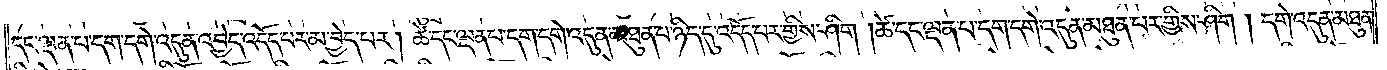དང་ལྡན་པ་དག་དགེ་འདུན་འབྱེད་འདོད་པར་མ་བྱེད་པར། ཚེ་དང་ལྡན་པ་དག་དགེ་འདུན་མཐུན་པ་ཉིད་དུ་འདོད་པར་གྱིས་ཤིག །ཚེ་དང་ལྡན་པ་དག་དགེ་འདུན་མཐུན་པར་གྱིས་ཤིག །དགེ་འདུན་མཐུན་
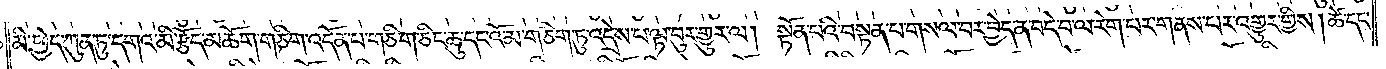མི་ཕྱེད་ཀུན་ཏུ་དགའ་མི་རྩོད་མཆོག་གཅིག་འདོན་པ་གཅིག་ཅིང་ཆུ་དང་འོ་མ་གཅིག་ཏུ་འདྲེས་པ་ལྟ་བུར་གྱུར་ལ། སྟོན་པའི་བསྟན་པ་གསལ་བར་བྱེད་ན་བདེ་བ་ལ་རེག་པར་གནས་པར་འགྱུར་གྱིས། ཚེ་དང་
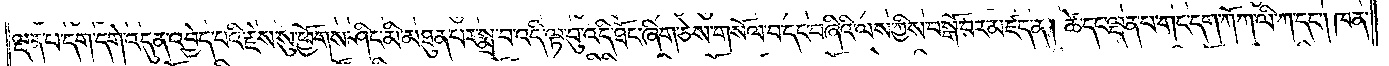ལྡན་པ་དག་དགེ་འདུན་འབྱེད་པའི་རྗེས་སུ་ཕྱོགས་ཤིང་མི་མཐུན་པར་སྨྲ་བ་འདི་ལྟ་བུ་འདི་ཐོང་ཞིག་ཅེས་གསོལ་པ་དང་བཞིའི་ལས་ཀྱིས་བསྒོ་བར་མཛད་ན། ཚེ་དང་ལྡན་པ་གང་དག་ཀོ་ཀ་ལི་ཀ་དང༌། ཁན་
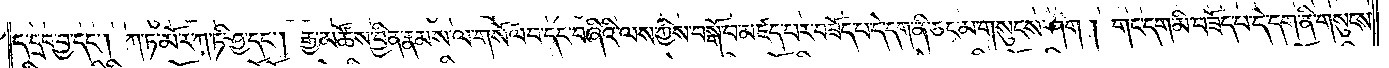ད་དྲབ་བྱ་དང༌། ཀ་ཏ་མོ་ར་ཀ་ཏི་ཤྱ་དང༌། རྒྱ་མཚོས་བྱིན་རྣམས་ལ་གསོལ་བ་དང་བཞིའི་ལས་ཀྱིས་བསྒོ་བ་མཛད་པར་བཟོད་པ་དེ་དག་ནི་ཅང་མ་གསུངས་ཤིག །གང་དག་མི་བཟོད་པ་དེ་དག་ནི་གསུངས་
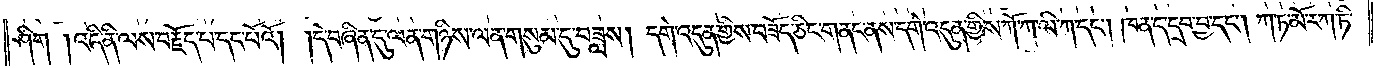ཤིག །འདི་ནི་ལས་བརྗོད་པ་དང་པོའོ། །དེ་བཞིན་དུ་ལན་གཉིས་ལན་གསུམ་དུ་བཟླས། དགེ་འདུན་གྱིས་བཟོད་ཅིང་གནང་ནས་དགེ་འདུན་གྱིས་ཀོ་ཀ་ལི་ཀ་དང༌། ཁན་ད་དྲབ་བྱ་དང༌། ཀ་ཏ་མོ་ར་ཀ་ཏི་
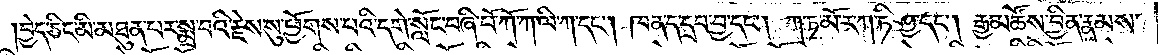བྱེད་ཅིང་མི་མཐུན་པར་སྨྲ་བའི་རྗེས་སུ་ཕྱོགས་པའི་དགེ་སློང་བཞི་པོ་ཀོ་ཀ་ལི་ཀ་དང༌། ཁན་ད་དྲབ་བྱ་དང༌། ཀ་ཏ་མོ་ར་ཀ་ཏི་ཤྱ་དང༌། རྒྱ་མཚོས་བྱིན་རྣམས་
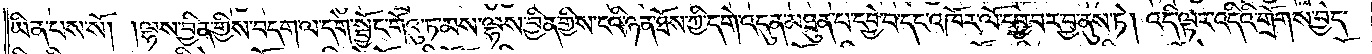ཡིན་པས་སོ། །ལྷས་བྱིན་གྱིས་བདག་ལ་དགེ་སྦྱོང་གོའུ་ཏ་མས་ལྷས་བྱིན་གྱིས་ངའི་ཉན་ཐོས་ཀྱི་དགེ་འདུན་མཐུན་པ་དབྱེ་བ་དང་འཁོར་ལོ་དབྱེ་བར་བྱ་ནུས་ཏེ། འདི་ལྟར་འདིའི་གྲོགས་བྱེད་
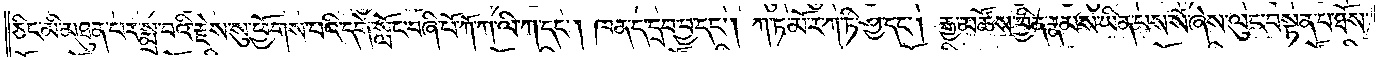ཅིང་མི་མཐུན་པར་སྨྲ་བའི་རྗེས་སུ་ཕྱོགས་པའི་དགེ་སློང་བཞི་པོ་ཀོ་ཀ་ལི་ཀ་དང༌། ཁན་ད་དྲབ་བྱ་དང༌། ཀ་ཏ་མོ་ར་ཀ་ཏི་ཤྱ་དང༌། རྒྱ་མཚོས་བྱིན་རྣམས་ཡིན་པས་སོ་ཞེས་ལུང་བསྟན་པ་ཐོས་
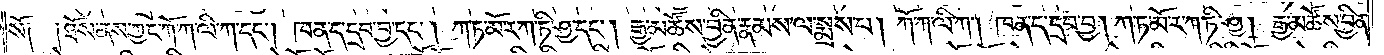སོ༑ ༑ཐོས་ནས་ཀྱང་ཀོ་ཀ་ལི་ཀ་དང༌། ཁན་ད་དྲབ་བྱ་དང༌། ཀ་ཏ་མོ་ར་ཀ་ཏི་ཤྱ་དང༌། རྒྱ་མཚོས་བྱིན་རྣམས་ལ་སྨྲས་པ། ཀོ་ཀ་ལི་ཀ། ཁན་ད་དྲབ་བྱ། ཀ་ཏ་མོ་ར་ཀ་ཏི་ཤྱ། རྒྱ་མཚོས་བྱིན་
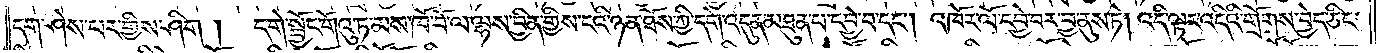དག་ཤེས་པར་གྱིས་ཤིག །    དགེ་སྦྱོང་གོའུ་ཏ་མས་ཁོ་བོ་ལ་ལྷས་བྱིན་གྱིས་ངའི་ཉན་ཐོས་ཀྱི་དགེ་འདུན་མཐུན་པ་དབྱེ་བ་དང༌། འཁོར་ལོ་དབྱེ་བར་བྱ་ནུས་ཏེ། འདི་ལྟར་འདིའི་གྲོགས་བྱེད་ཅིང་
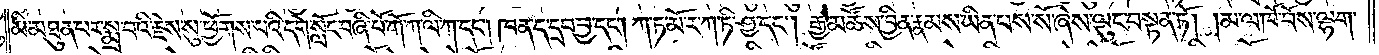མི་མཐུན་པར་སྨྲ་བའི་རྗེས་སུ་ཕྱོགས་པའི་དགེ་སློང་བཞི་པོ་ཀོ་ཀ་ལི་ཀ་དང༌། ཁན་ད་དྲབ་བྱ་དང༌། ཀ་ཏ་མོ་ར་ཀ་ཏི་ཤྱ་དང༌། རྒྱ་མཚོས་བྱིན་རྣམས་ཡིན་པས་སོ་ཞེས་ལུང་བསྟན་ཏོ། །མ་ལ་ཁོ་བོས་ལྷག་
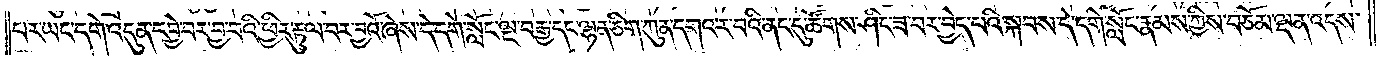པར་ཡང་དགེ་འདུན་དབྱེ་བར་བྱ་བའི་ཕྱིར་རྟུལ་བར་བྱའོ་ཞེས་དེ་དགེ་སློང་ལྔ་བརྒྱ་དང་ལྷན་ཅིག་ཀུན་དགའ་ར་བའི་ནང་དུ་ཚོགས་ཤིང་ཟ་བར་བྱེད་པའི་སྐབས་དེ་དགེ་སློང་རྣམས་ཀྱིས་བཅོམ་ལྡན་འདས་
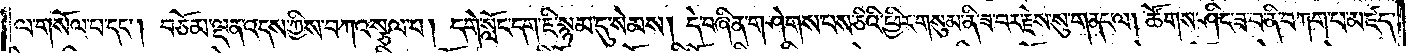ལ་གསོལ་པ་དང༌། བཅོམ་ལྡན་འདས་ཀྱིས་བཀའ་སྩལ་པ། དགེ་སློང་དག་ཇི་སྙམ་དུ་སེམས། དེ་བཞིན་གཤེགས་པས་ཅིའི་ཕྱིར་གསུམ་ནི་ཟ་བར་རྗེས་སུ་གནང་ལ། ཚོགས་ཤིང་ཟ་བ་ནི་བཀག་པ་མཛད་
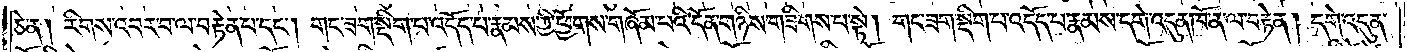ཅེ་ན། རིགས་འབར་བ་ལ་བརྟེན་པ་དང༌། གང་ཟག་སྡིག་པ་འདོད་པ་རྣམས་ཀྱི་ཕྱོགས་གཞོམ་པའི་དོན་གཉིས་གཟིགས་པ་སྟེ། གང་ཟག་སྡིག་པ་འདོད་པ་རྣམས་དགེ་འདུན་ཁོ་ན་ལ་བརྟེན། དགེ་འདུན་
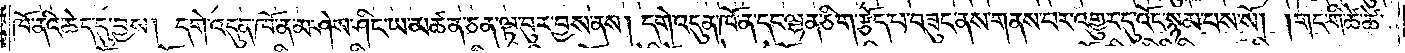ཁོ་ནའི་ཆེད་དུ་བྱས། དགེ་འདུན་ཁོ་ན་མ་ཤེས་ཤིང་ཡ་མཚན་ཅན་ལྟ་བུར་བྱས་ནས། དགེ་འདུན་ཁོ་ན་དང་ལྷན་ཅིག་རྩོད་པ་བཟུང་ནས་གནས་པར་འགྱུར་དུ་འོང་སྙམ་པས་སོ། །གང་གི་ཚེ་ཚེ་
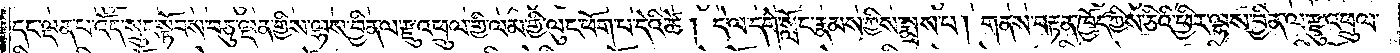དང་ལྡན་པ་འོད་སྲུང་སྟོབས་བཅུ་ལྡན་གྱིས་ལྷས་བྱིན་ལ་རྫུ་འཕྲུལ་གྱི་ལམ་གྱི་ལུང་ཕོག་པ་དེའི་ཚེ། དེ་ལ་དགེ་སློང་རྣམས་ཀྱིས་སྨྲས་པ། གནས་བརྟན་ཁྱོད་ཀྱིས་ཅིའི་ཕྱིར་ལྷས་བྱིན་ལ་རྫུ་འཕྲུལ་
